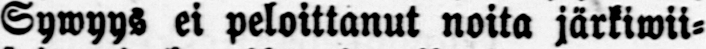Sywyys ei peloittanut noita jälkiwii-
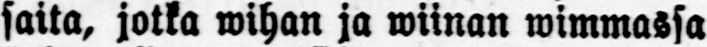saita, jotka wihan ja wiinan wimmassa
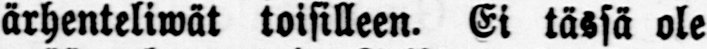ärhentelivät toisilleen. Ei tässä ole
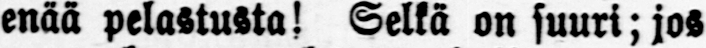enää pelastusta! Selkä on suuri; jos
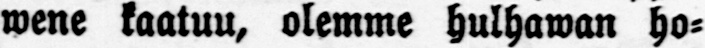wene kaatuu, olemme hulhavan ho-
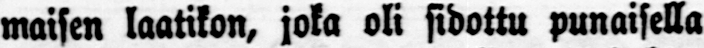maisen laatikon, joka oli sidottu punaisella
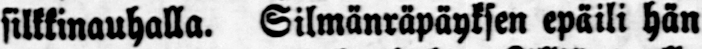silkkinauhalla. Silmänräpäyksen epäili hän
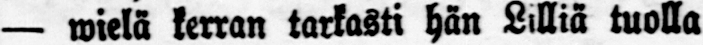— wielä kerran tarkasti hän Lilliä tuolla
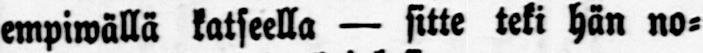empiwällä katseella — sitte teki hän no-
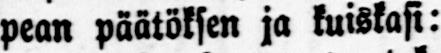pean päätöksen ja kuiskasi:
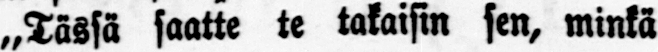„Tässä saatte te takaisin sen, minkä
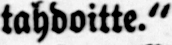tahdoitte."
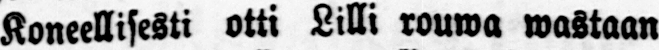Koneellisesti otti Lilli rouwa wastaan
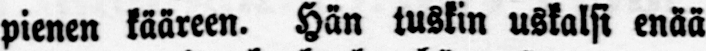pienen kääreen. Hän tuskin uskalsi enää
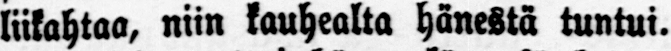liikahtaa, niin kauhealta hänestä tuntui.
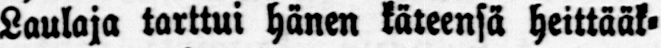Laulaja tarttui hänen käteensä heittääk-
